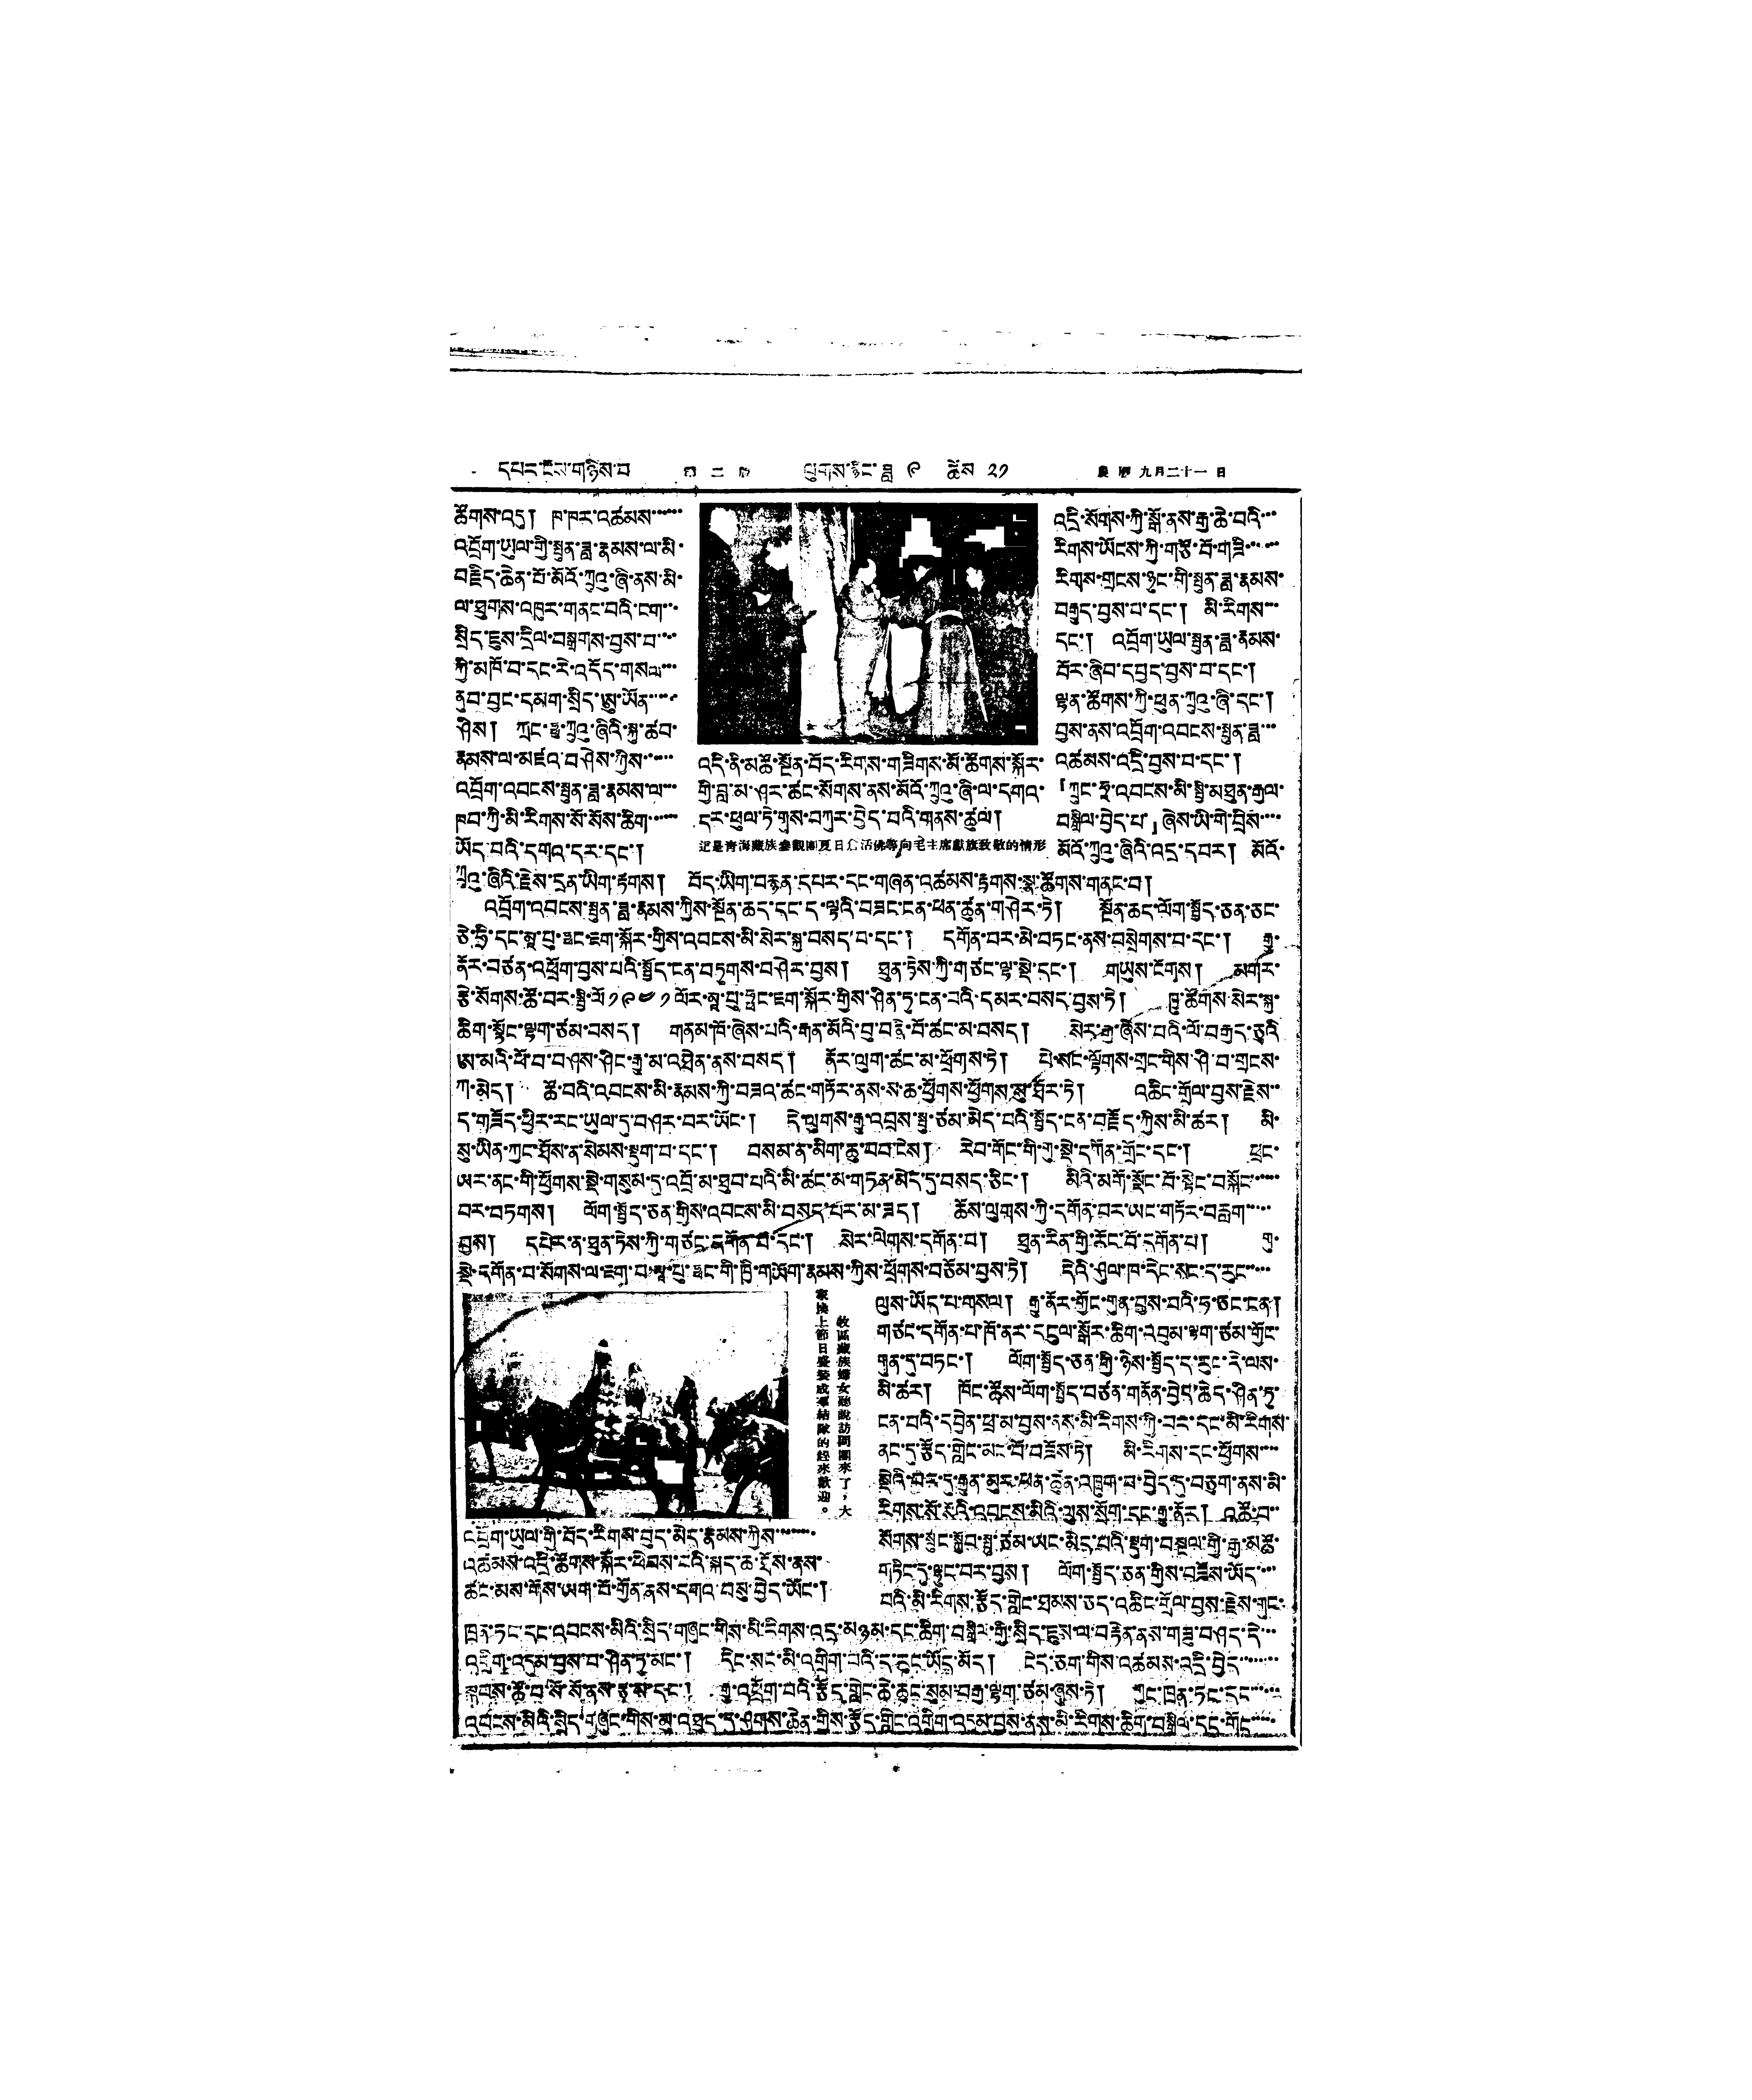དཔར་ངོས་གཉིས་པ 第 二 版 ལུགས་རྙིང་ཟླ ༩ ཚེས ༢༡ 農 曆 九月二十一 日
འདི་ནི་མཚོ་སྔོན་བོད་རིགས་གཟིགས་མོ་ཚོགས་སྐོར་
གྱི་བླ་མ་ཤར་ཚང་སོགས་ནས་མོའོ་ཀྲུའུ་ཞི་ལ་དགའ་
དར་ཕུལ་ཏེ་གུས་བཀུར་བྱེད་པའི་གནས་ཚུལ།
這是青海藏族參觀團夏日倉活佛等向毛主席獻旗致敬的情形
ཚོགས་འདུ། ཁ་ཁར་འཚམས་་་་་
འདྲི་སོགས་ཀྱི་སྒོ་ནས་རྒྱ་ཆེ་བའི་་་
འབྲོག་ཡུལ་གྱི་སྤུན་ཟླ་རྣམས་ལ་མི་
རིགས་ཡོངས་ཀྱི་གཙོ་བོ་གཟི་་་་་
བརྗིད་ཆེན་པོ་མོའོ་ཀྲུའུ་ཞི་ནས་མི་
རིགས་གྲངས་ཉུང་གི་སྤུན་ཟླ་རྣམས་
ལ་ཐུགས་འཁུར་གནང་བའི་ངག་་་
བརྒྱུད་བྱས་པ་དང་། མི་རིགས་་་
སྲིད་ཇུས་དྲིལ་བསྒྲགས་བྱས་པ་་་་
དང་། འབྲོག་ཡུལ་སྤུན་ཟླ་རྣམས་
ཀྱི་མཁོ་བ་དང་རེ་འདོད་གསལ་་་
བོར་ཞིབ་དཔྱད་བྱས་པ་དང་།
ནུབ་བྱང་དམག་སྲིད་ཨུ་ཡོན་་་་་
ལྷན་ཚོགས་ཀྱི་ཕུན་ཀྲུའུ་ཞི་དང་།
ཤིས། ཀྲང་ཧྥུ་ཀྲུའུ་ཞིའི་སྐུ་ཚབ་
བྱས་ནས་འབྲོག་འབངས་སྤུན་ཟླ་་་
རྣམས་ལ་མཛའ་བཤེས་ཀྱིས་་་་་
འཚམས་འདྲི་བྱས་པ་དང་།
འབྲོག་འབངས་སྤུན་ཟླ་རྣམས་ལ་་་་་་
『ཀྲུང་ཧཱ་འབངས་མི་སྤྱི་མཐུན་རྒྱལ་
ཁབ་ཀྱི་མི་རིགས་སོ་སོས་ཆིག་་་་་
བསྒྲིལ་བྱེད་པ་』ཞེས་ཡི་གེ་བྲིས་་་་
ཡོད་པའི་དགའ་དར་དང་།
མོའོ་ཀྲུའུ་ཞིའི་འདྲ་དབར། མོའོ་
ཀྲུའུ་ཞིའི་རྗེས་དྲན་ཡིག་རྟགས། བོད་ཡིག་བརྙན་དཔར་དང་གཞན་འཚམས་རྟགས་སྣ་ཚོགས་གནང་བ།
འབྲོག་འབངས་སྤུན་ཟླ་རྣམས་ཀྱིས་སྔོན་ཆད་དང་ད་ལྟའི་བཟང་ངན་ཕན་ཚུན་གཤེར་ཏེ། སྔོན་ཆད་ལོག་སྤྱོད་ཅན་ཅང་
ཅེ་ཧྲི་དང་མཱ་པུ་ཧྥང་ཇག་སྐོར་གྱིས་འབངས་མི་སེར་སྐྱ་བསད་བ་དང་། དགོན་བར་མེ་བཏང་ནས་བསྲེགས་པ་དང་། རྒྱུ་
ནོར་བཙན་འཕྲོག་བྱས་པའི་སྤྱོད་ངན་བཏུགས་བཤེར་བྱས། ཐུན་ཏེས་ཀྱི་གཙང་ལྷ་སྡེ་དང་། གཡུས་ངོགས། མགར་
རྩེ་སོགས་ཚོ་བར་སྤྱི་ལོ ༡༩༤༡ ལོར་མཱ་པུ་ཧྥང་ཇག་སྐོར་གྱིས་ཤིན་ཏུ་ངན་པའི་དམར་བསད་བྱས་ཏེ། ཁྱུ་ཚོགས་སེར་སྐྱ་
ཆིག་སྟོང་ལྷག་ཙམ་བསད། གནམ་ཁོ་ཞེས་པའི་རྒན་མོའི་བུ་བཞི་བོ་ཚང་མ་བསད། སེར་རྒྱ་ཞེས་པའི་ལོ་བརྒྱད་ཅུའི
ཨ་མའི་ཕོ་བ་བཤས་ཤིང་རྒྱུ་མ་འཐེན་ནས་བསད། ནོར་ལུག་ཚང་མ་ཕྲོགས་ཏེ། པེ་སང་ལྟོགས་གྲང་གིས་ཤི་བ་གྲངས་
ཀ་མེད། ཚོ་བའི་འབངས་མི་རྣམས་ཀྱི་བཟའ་ཚང་གཏོར་ནས་ས་ཆ་ཕྱོགས་ཕྱོགས་སུ་ཐོར་ཏེ། འཆིང་གྲོལ་བྱས་རྗེས་་
ད་གཟོད་ཕྱིར་རང་ཡུལ་དུ་བཤར་བར་ཡོང་། དེ་ལུགས་རྒྱུ་འབྲས་སྤུ་ཙམ་མེད་པའི་སྤྱོད་ངན་བརྗོད་ཀྱིས་མི་ཚར། མི་
སུ་ཡིན་ཀྱང་ཐོས་ན་སེམས་སྡུག་པ་དང་། བསམ་ན་མིག་ཆུ་བབ་ངེས། རེབ་གོང་གི་གུ་སྡེ་དགོན་གྲོང་དང་། ཕྲང་
ཡར་ནང་གི་ཕྱོགས་སྡེ་གསུམ་དུ་འབྲོ་མ་ཐུབ་པའི་མི་ཚང་མ་གཏན་མེད་དུ་བསད་ཅིང་། མིའི་མགོ་སྡོང་བོ་སྟེང་བསྐོང་་་་་་
བར་བཏགས། ལོག་སྤྱོད་ཅན་གྱིས་འབངས་མི་བསད་པར་མ་ཟད། ཆོས་ལུགས་ཀྱི་དགོན་བར་ཡང་གཏོར་བརླག་་་་་་་
བྱས། དཔེར་ན་ཐུན་ཏེས་ཀྱི་གཙང་དགོན་པ་དང་། སེར་ལེགས་དགོན་པ། ཐུན་རིན་གྱི་རོང་བོ་དགོན་པ། གུ་
སྡེ་དགོན་པ་སོགས་ལ་ཇག་པ་མཱ་པུ་ཧྥང་གི་ཁྱི་གཡོག་རྣམས་ཀྱིས་ཕྲོགས་བཅོམ་བྱས་ཏེ། དེའི་ཤུལ་ཁ་དེང་སང་ད་རུང་་་་་་་
ལུས་ཡོད་པ་གསལ། རྒྱུ་ནོར་གྱོང་གུན་བྱས་པའི་ཧ་ཅང་ངན།
གཙང་དགོན་པ་ཁོ་ནར་དངུལ་སྒོར་ཆིག་འབུམ་ལྷག་ཙམ་གྱོང་
གུན་དུ་བཏང་། ལོག་སྤྱོད་ཅན་གྱི་ཉེས་སྤྱོད་ད་རུང་དེ་ལས་
མི་ཚར། ཁོང་ཚོས་ལོག་སྤྱོད་བཙན་གནོན་བྱེད་ཆེད་ཤིན་ཏུ་
ངན་པའི་དབྱེན་ཕྲ་མ་བྱས་ནས་མི་རིགས་ཀྱི་བར་དང་མི་རིགས་
ནང་དུ་རྩོད་གླེང་མང་པོ་བཟོས་ཏེ། མི་རིགས་དང་ཕྱོགས་་་་
སྡེའི་བར་དུ་རྒྱུན་མུར་ཕན་ཚུན་འཁྲུག་པ་བྱེད་དུ་བཅུག་ནས་མི་
རིགས་སོ་སོའི་འབངས་མིའི་ལུས་སྲོག་དང་རྒྱུ་ནོར། འཚོ་བ་་
སོགས་སྲུང་སྐྱོབ་སྤུ་ཙམ་ཡང་མེད་པའི་སྡུག་བསྔལ་གྱི་རྒྱ་མཚོ་
གཏིང་དུ་ལྷུང་བར་བྱས། ལོག་སྤྱོད་ཅན་གྱིས་བཟོས་ཡོད་་་་
པའི་མི་རིགས་རྩོད་གླེང་ཐམས་ཅད་འཆིང་གྲོལ་བྱས་རྗེས་གུང་
ཁྲན་ཏང་དང་འབངས་མིའི་སྲིད་གཞུང་གིས་མི་རིགས་འདྲ་མཉམ་དང་ཆིག་བསྒྲིལ་གྱི་སྲིད་ཇུས་ལ་བརྟེན་ནས་གཟུ་བཤད་དེ་་་
འགྲིག་འདུམ་བྱས་པ་ཤིན་ཏུ་མང་། དིང་སང་མི་འགྲིག་པའི་ད་རུང་ཡོད་མོད། ངེད་ཅག་གིས་འཚམས་འདྲི་བྱེད་་་་་་་་
སྐབས་ཚོ་བ་སོ་སོ་ནས་རྩྭ་ས་དང་། རྒྱུ་འཕྲོག་པའི་རྩོད་གླེང་ཆེ་ཆུང་སུམ་བརྒྱ་ལྷག་ཙམ་ཞུས་ཏེ། གུང་ཁྲན་ཏང་དང་་་་་་
འབངས་མིའི་སྲིད་གཞུང་གིས་མུ་འཐུད་དུ་ཤུགས་ཆེན་གྱིས་རྩོད་གླིང་འགྲིག་འདུམ་བྱས་ནས་མི་རིགས་ཆིག་བསྒྲིལ་དང་གོང་་་་་
牧區藏族婦女聽說訪問團來了，大
家換上節日盛裝成羣結隊的趕來歡迎。
འབྲོག་ཡུལ་གྱི་བོད་རིགས་བུད་མེད་རྣམས་ཀྱིས་་་་་་་་
འཚམས་འདྲི་ཚོགས་སྐོར་ཕེབས་པའི་སྐད་ཆ་ཐོས་ནས་
ཚང་མས་གོས་ཡག་པོ་གྱོན་ནས་དགའ་བསུ་བྱེད་ཡོང་།
